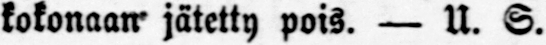kokonaan jätetty pois. — U. S.
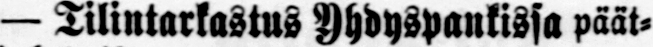— Tilintarkastus Yhdyspankissa päät-
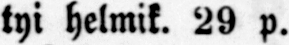tyi helmik. 29 p.
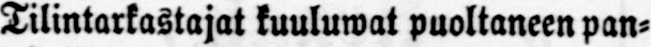Tilintarkastajat kuuluwat puoltaneen pan-
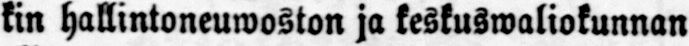kin hallintoneuwoston ja keskuswaliokunnan
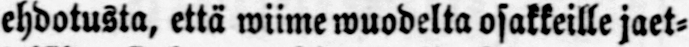ehdotusta, että wiime wuodelta osakkeille jaet-
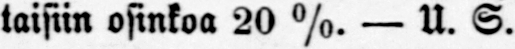taisiin osinkoa 20 %. — U. S.
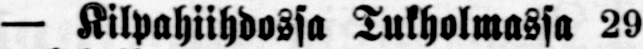— Kilpahiihdossa Tukholmassa 29
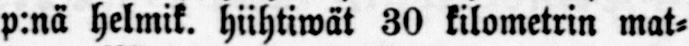p:nä helmik. hiihtiwät 30 kilometrin mat-
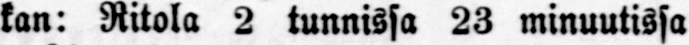kan: Ritola 2 tunnissa 23 minuutissa
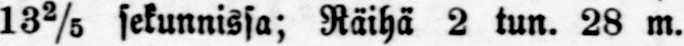13 2/5 sekunnissa; Räihä 2 tun. 28 m.
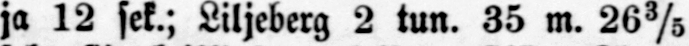ja 12 sek.; Liljeberg 2 tun. 35 m. 26 3/5
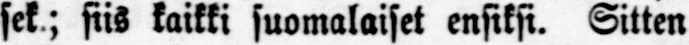sek.; siis kaikki suomalaiset ensiksi. Sitten
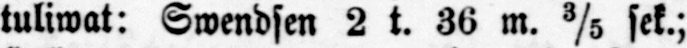tuliwat: Swendsen 2 t. 36 m. 3/5 sek.;
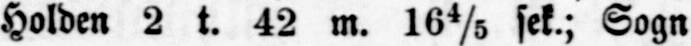Holden 2 t. 42 m. 16 4/5 sek.; Sogn
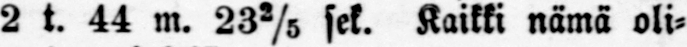2 t. 44 m. 23 2/5 sek. Kaikki nämä oli-
